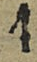4
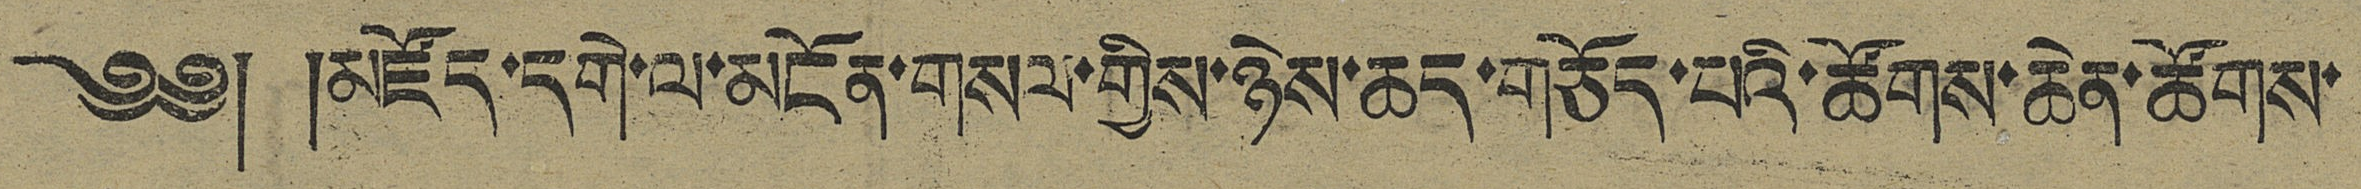༄༅། །མཛོད་དགེ་ལ་མངོན་གསལ་གྱིས་ཉེས་ཆད་གཅོད་པའི་ཚོགས་ཆེན་ཚོགས་
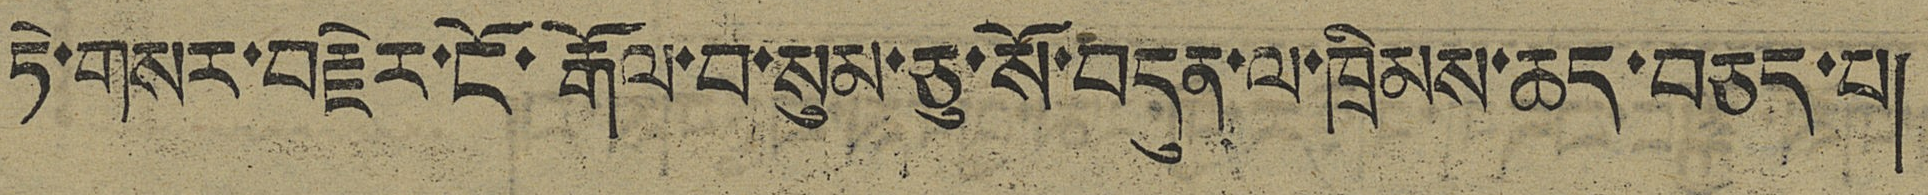ཏེ་གསར་བརྗེར་ངོ་རྒོལ་བ་སུམ་ཅུ་སོ་བདུན་ལ་ཁྲིམས་ཆད་བཅད་པ།
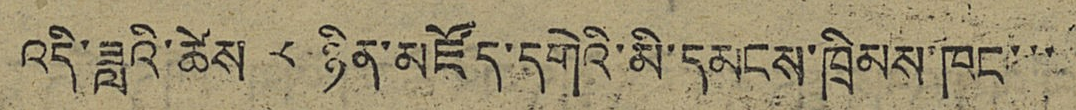འདི་ཟླའི་ཚེས ༨ ཉིན་མཛོད་དགེའི་མི་དམངས་ཁྲིམས ཁང་་་
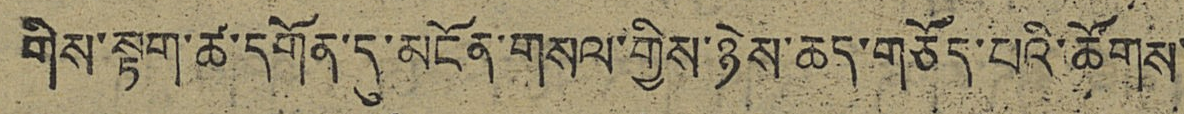གིས་སྟག་ཚ་དགོན་དུ་མངོན་གསལ་གྱིས་ཉེས་ཆད་གཅོད་པའི་ཚོགས་
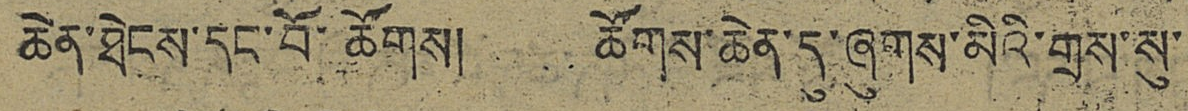ཆེན་ཐེངས་དང་བོ་ཚོགས། ཚོགས་ཆེན་དུ་ཞུགས་མིའི་གྲས་སུ་
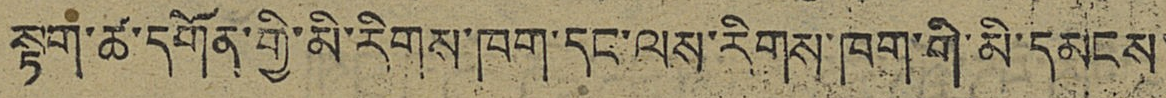སྟག་ཚ་དགོན་གྱི་མི་རིགས་ཁག་དང་ལས་རིགས་ཁག་གི་མི་དམངས་
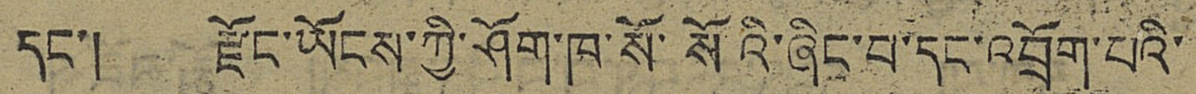དང་། རྫོང་ཡོངས་ཀྱི་ཤོག་ཁ་སོ་སོའི་ཞིང་པ་དང་འབྲོག་པའི་
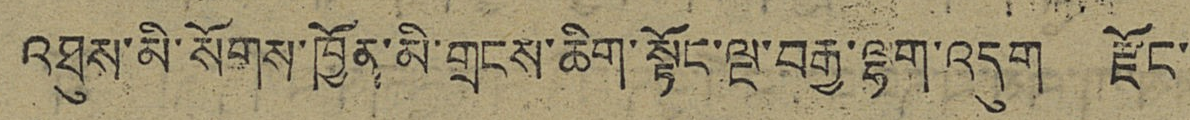འཐུས་མི་སོགས་ཁྱོན་མི་གྲངས་ཆིག་སྟོང་ལྔ་བརྒྱ་ལྷག་འདུག རྫོང་
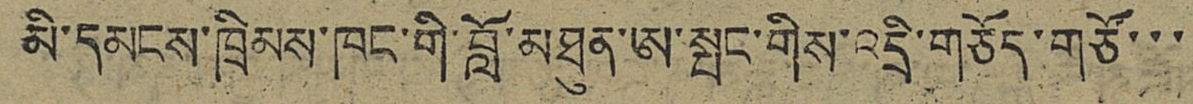མི་དམངས་ཁྲིམས་ཁང་གི་བློ་མཐུན་ཨ་སྤང་གིས་འདྲི་གཅོད་གཙོ་་་
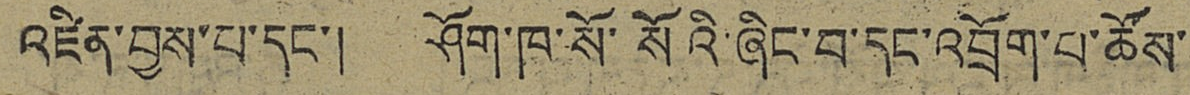འཛིན་བྱས་པ་དང་། ཤོག་ཁ་སོ་སོའི་ཞིང་བ་དང་འབྲོག་པ་ཚོས་
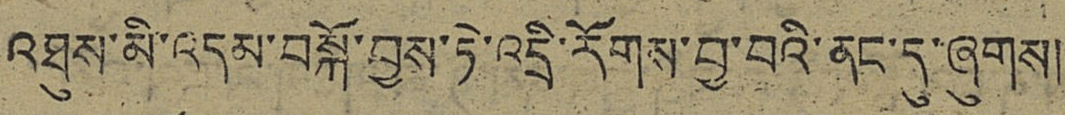འཐུས་མི་འདམ་བསྐོ་བྱས་ཏེ་འདྲི་རོགས་བྱ་བའི་ནང་དུ་ཞུགས།
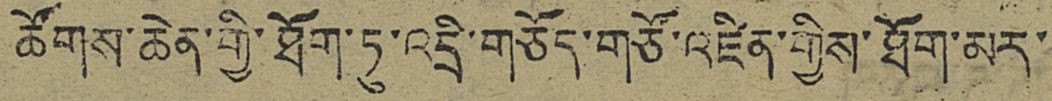ཚོགས་ཆེན་གྱི་ཐོག་ཏུ་འདྲི་གཅོད་གཙོ་འཛིན་གྱིས་ཐོག་མར་
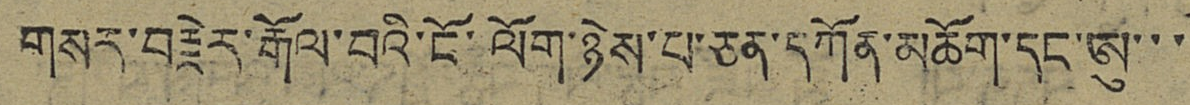གསར་བརྗེར་རྒོལ་བའི་ངོ་ལོག་ཉེས་པ་ཅན་དཀོན་མཆོག་དང་ཨུ་་་
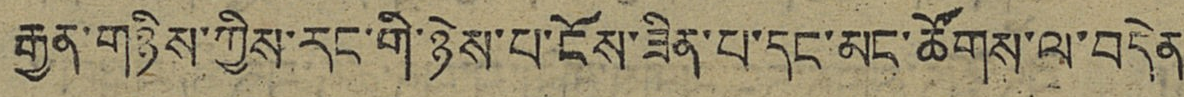རྒྱན་གཉིས་ཀྱིས་རང་གི་ཉེས་པ་ངོས་ཟིན་པ་དང་མང་ཚོགས་ལ་བདེན
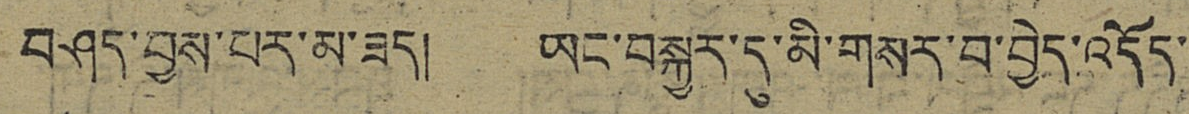བཤད་བྱས་པར་མ་ཟད། ཡང་བསྐྱར་དུ་མི་གསར་བ་བྱེད་འདོད་
